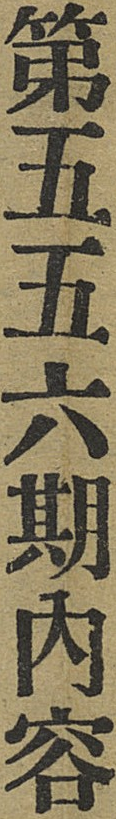第五五六期內容
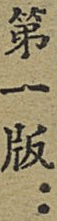第一版：
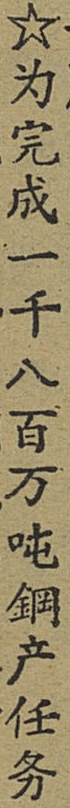☆为完成一千八百万吨鋼产任务
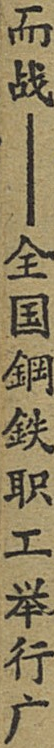而战——全国鋼鉄职工举行广
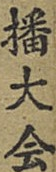播大会
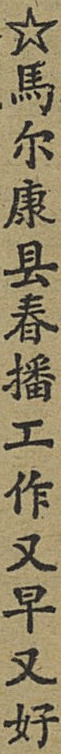☆馬尔康县春播工作又早又好
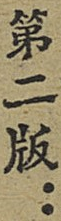第二版：
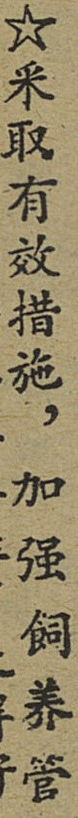☆采取有效措施，加强飼养管
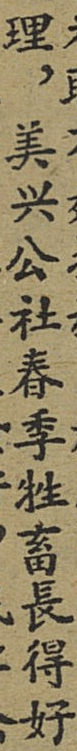理，美兴公社春季牲畜長得好
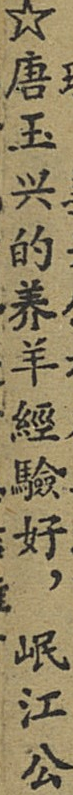☆唐玉兴的养羊經驗好，岷江公
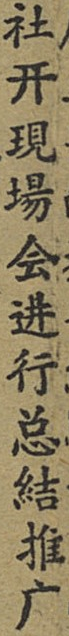社开現場会进行总結推广
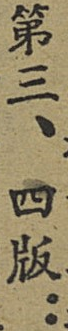第三、四版：
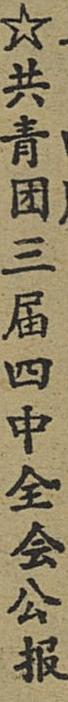☆共青团三届四中全会公报
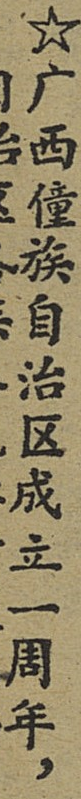☆广西僮族自治区成立一周年，
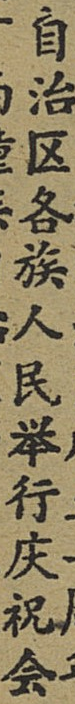自治区各族人民举行庆祝会
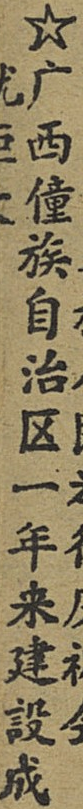☆广西僮族自治区一年來建設成
